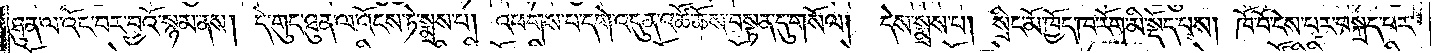ཐུན་ལ་འོང་བར་བྱའོ་སྙམ་ནས། དེ་གུང་ཐུན་ལ་འོངས་ཏེ་སྨྲས་པ། འཕགས་པ་དགེ་འདུན་འཚོ་ཆོས་བསྟན་དུ་གསོལ། དེས་སྨྲས་པ། སྲིང་མོ་ཁྱོད་ཁ་རོག་མི་སྡོད་པས། ཁོ་བོ་ངེས་པར་བསྐྲད་པར་
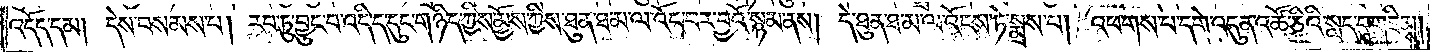འདོད་དམ། དེས་བསམས་པ། རབ་ཏུ་བྱུང་བ་འདི་ད་དུང་གཉིད་ཀྱིས་མྱོས་ཀྱིས་ཐུན་ཐ་མ་ལ་འོང་བར་བྱའོ་སྙམ་ནས། དེ་ཐུན་ཐ་མ་ལ་འོངས་ཏེ་སྨྲས་པ། འཕགས་པ་དགེ་འདུན་འཚོ་ཅིའི་སླད་དུ་གཟིམས།
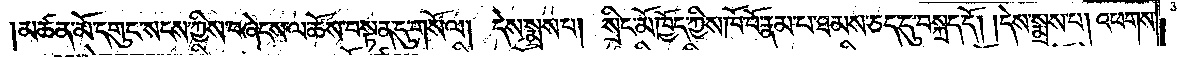མཚན་མོ་དགུང་སངས་ཀྱིས་བཞེངས་ལ་ཆོས་བསྟན་དུ་གསོལ། དེས་སྨྲས་པ། སྲིང་མོ་ཁྱོད་ཀྱིས་ཁོ་བོ་རྣམ་པ་ཐམས་ཅད་དུ་བསྐྲད་དོ། །དེས་སྨྲས་པ། འཕགས་
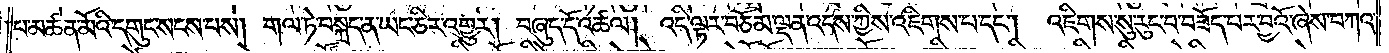པ་མཚན་མོའི་དགུང་སངས་པས། གལ་ཏེ་བསྐྲད་ན་ཡང་ཅིར་འགྱུར། བཞུད་དོ་འཚལ། འདི་ལྟར་བཅོམ་ལྡན་འདས་ཀྱིས་འཇིགས་པ་དང༌། འཇིགས་སུ་རུང་བ་བཟོད་པར་བྱའོ་ཞེས་བཀའ་
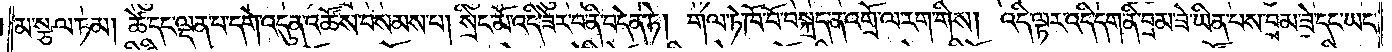མ་སྩལ་ཏམ། ཚེ་དང་ལྡན་པ་དགེ་འདུན་འཚོས་བསམས་པ། སྲིང་མོ་འདི་ཟེར་བ་ནི་བདེན་ཏེ། གལ་ཏེ་ཁོ་བོ་བསྐྲད་ན་འགྲོ་ལ་རག་གིས། འདི་ལྟར་འདི་དག་ནི་བྲམ་ཟེ་ཡིན་པས་བྲམ་ཟེ་དང་ཡང་
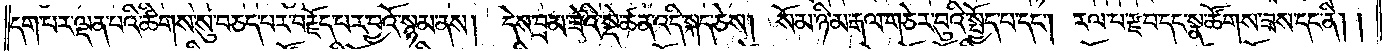དག་པར་ལྡན་པའི་ཚིགས་སུ་བཅད་པར་བརྗོད་པར་བྱའོ་སྙམ་ནས། དེས་བྲམ་ཟེའི་སྡེ་ཚན་འདི་སྐད་ཅེས། སོམ་ཉི་མ་རྒལ་གཅེར་བུའི་སྤྱོད་པ་དང༌། རལ་པ་རྫ་བ་དང་སྣ་ཚོགས་ཟས་དང་ནི། །
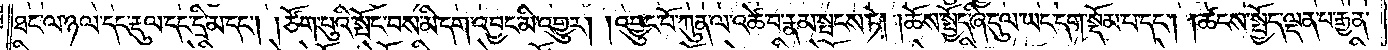ཐང་ལ་ཉལ་དང་རྡུལ་དང་དྲི་མ་དང༌། །ཙོག་པུའི་སྤོང་བས་མི་དག་འབྱང་མི་འགྱུར། །འབྱུང་པོ་ཀུན་ལ་འཚེ་བ་རྣམ་སྤངས་ཏེ། །ཆོས་སྤྱོད་ཞི་དུལ་ཡང་དག་སྡོམ་པ་དང༌། །ཚངས་སྤྱོད་ལྡན་པ་རྒྱན་
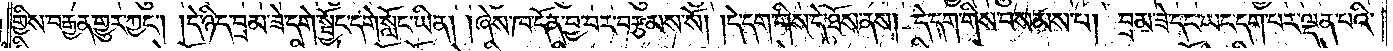གྱིས་བརྒྱན་གྱུར་ཀྱང༌། །དེ་ཉིད་བྲམ་ཟེ་དགེ་སྦྱོང་དགེ་སློང་ཡིན། །ཞེས་ཁ་དོན་བྱ་བར་བརྩམས་སོ། །དེ་དག་གིས་དེ་ཐོས་ནས། དེ་དག་གིས་བསམས་པ། བྲམ་ཟེ་དང་ཡང་དག་པར་ལྡན་པའི་
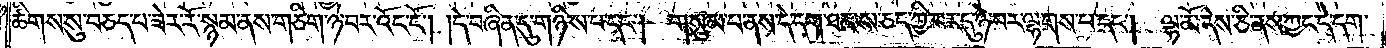ཚིགས་སུ་བཅད་པ་ཟེར་རོ་སྙམ་ནས་གཅིག་ཉེ་བར་འོང་ངོ༌། །དེ་བཞིན་དུ་གཉིས་པ་དང༌། གསུམ་པ་ནས་དེ་དག་ཐམས་ཅད་ཀྱི་བར་དུ་ཉེ་བར་ལྷགས་པ་དང༌། ལྷ་མོ་དེས་ཅི་ནས་ཀྱང་དེ་དག་
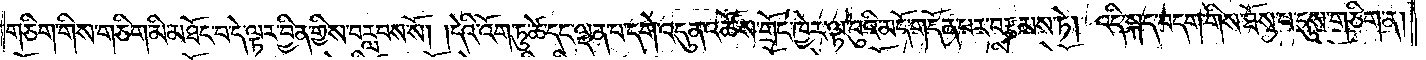གཅིག་གིས་གཅིག་མི་མཐོང་བ་དེ་ལྟར་བྱིན་གྱིས་བརླབས་སོ། །དེའི་འོག་ཏུ་ཚེ་དང་ལྡན་པ་དགེ་འདུན་འཚོས་གྲོང་ཁྱེར་ལྟ་བུའི་མདོ་གདོན་པར་བརྩམས་ཏེ། འདི་སྐད་བདག་གིས་ཐོས་པ་དུས་གཅིག་ན།
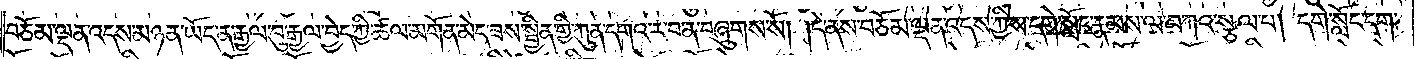བཅོམ་ལྡན་འདས་མཉན་ཡོད་ན་རྒྱལ་བུ་རྒྱལ་བྱེད་ཀྱི་ཚལ་མགོན་མེད་ཟས་སྦྱིན་གྱི་ཀུན་དགའ་ར་བ་ན་བཞུགས་སོ། །དེ་ནས་བཅོམ་ལྡན་འདས་ཀྱིས་དགེ་སློང་རྣམས་ལ་བཀའ་སྩལ་པ། དགེ་སློང་དག་
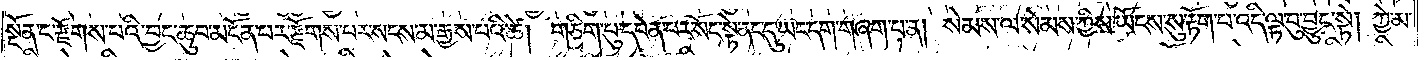སྔོན་ང་རྫོགས་པའི་བྱང་ཆུབ་མངོན་པར་རྫོགས་པར་སངས་མ་རྒྱས་པའི་ཚེ། གཅིག་པུ་དབེན་པར་སོང་སྟེ་ནང་དུ་ཡང་དག་གཞག་པ་ན། སེམས་ལ་སེམས་ཀྱིས་ཡོངས་སུ་རྟོག་པ་འདི་ལྟ་བུ་བྱུང་སྟེ། ཀྱེ་མ་
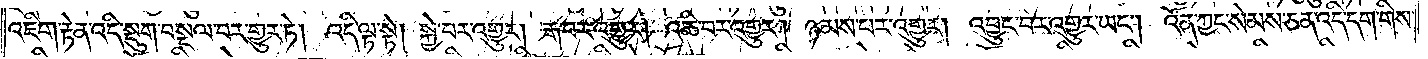འཇིག་རྟེན་འདི་སྡུག་བསྔལ་བར་གྱུར་ཏེ། འདི་ལྟ་སྟེ། སྐྱེ་བར་འགྱུར། རྒ་བར་འགྱུར། འཆི་བར་འགྱུར། ཉམས་པར་འགྱུར། འབྱུང་བར་འགྱུར་ཡང༌། འོན་ཀྱང་སེམས་ཅན་འདི་དག་གིས་
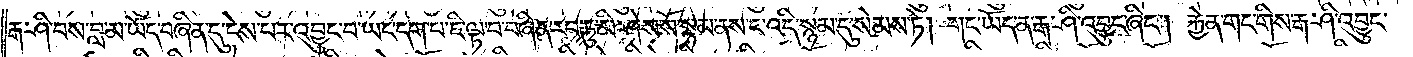རྒ་ཤི་བས་བླ་མ་ཡོད་བཞིན་དུ་ངེས་པར་འབྱུང་བ་ཡང་དག་པ་ཇི་ལྟ་བ་བཞིན་རབ་ཏུ་མི་ཤེས་སོ་སྙམ་ནས་ང་འདི་སྙམ་དུ་སེམས་ཏེ། གང་ཡོད་ན་རྒ་ཤི་འབྱུང་ཞིང༌། རྐྱེན་གང་གིས་རྒ་ཤི་འབྱུང་
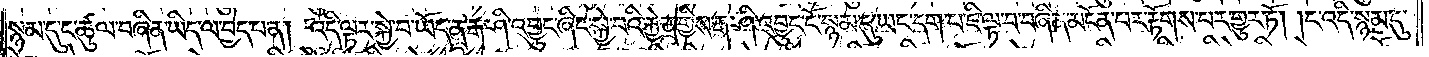སྙམ་དུ་ང་ཚུལ་བཞིན་ཡིད་ལ་བྱེད་པ་ན། འདི་ལྟར་སྐྱེ་བ་ཡོད་ན་རྒ་ཤི་འབྱུང་ཞིང་སྐྱེ་བའི་རྐྱེན་གྱིས་རྒ་ཤི་འབྱུང་ངོ་སྙམ་དུ་ཡང་དག་པ་ཇི་ལྟ་བ་བཞིན་མངོན་པར་རྟོགས་པར་གྱུར་ཏོ། །ང་འདི་སྙམ་དུ་
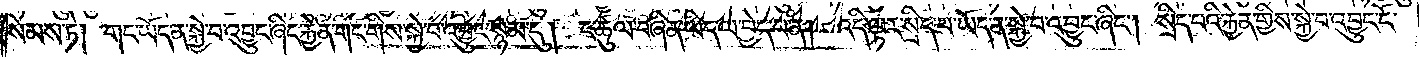སེམས་ཏེ། གང་ཡོད་ན་སྐྱེ་བ་འབྱུང་ཞིང་རྐྱེན་གང་གིས་སྐྱེ་བ་འབྱུང་སྙམ་དུ། ང་ཚུལ་བཞིན་ཡིད་ལ་བྱེད་པ་ན། འདི་ལྟར་སྲིད་པ་ཡོད་ན་སྐྱེ་བ་འབྱུང་ཞིང༌། སྲིད་པའི་རྐྱེན་གྱིས་སྐྱེ་བ་འབྱུང་ངོ་
